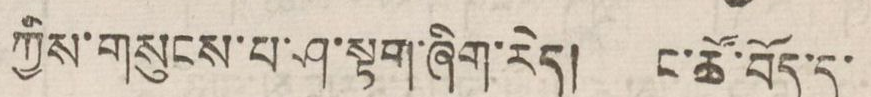ཀྱིས་གསུངས་པ་ཤ་སྟག་ཤིག་རེད། ང་ཚོ་བོད་དུ་
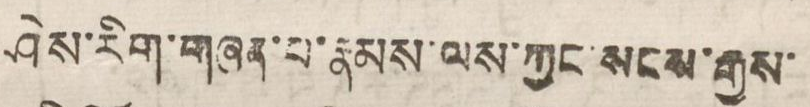ཤེས་རིག་གཞན་པ་རྣམས་ལས་ཀྱང་སངས་རྒྱས་
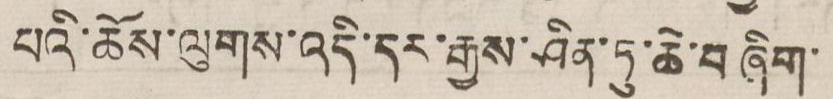པའི་ཆོས་ལུགས་འདི་དར་རྒྱས་ཤིན་ཏུ་ཆེ་བ ཞིག་
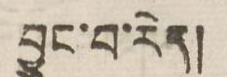བྱུང་བ་རེད།
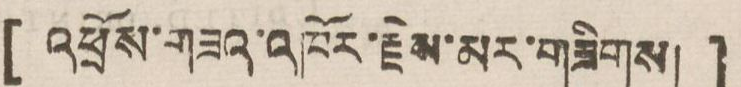[ འཕྲོས་གཟའ་འཁོར་རྗེས་མར་གཟིགས། ]
